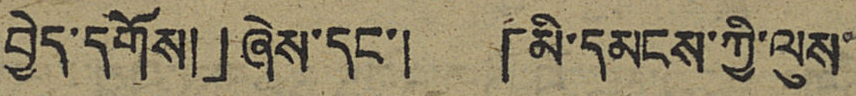བྱེད་དགོས།」ཞེས་དང་། 「མི་དམངས་ཀྱི་ལུས་
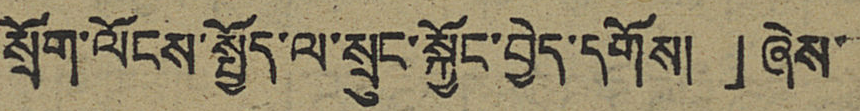སྲོག་ལོངས་སྤྱོད་ལ་སྲུང་སྐྱོང་བྱེད་དགོས།」ཞེས་
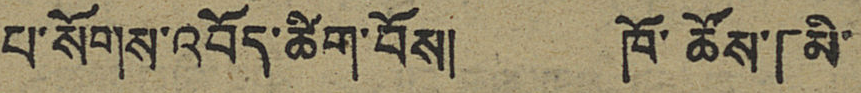པ་སོགས་འབོད་ཚིག་བོས། ཁོ་ཚོས་「མི་
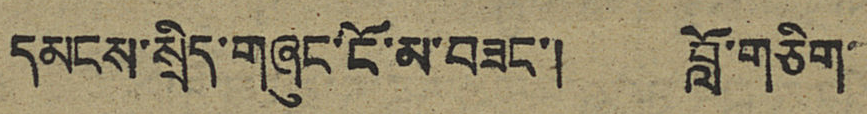དམངས་སྲིད་གཞུང་ངོ་མ་བཟང་། བློ་གཅིག་
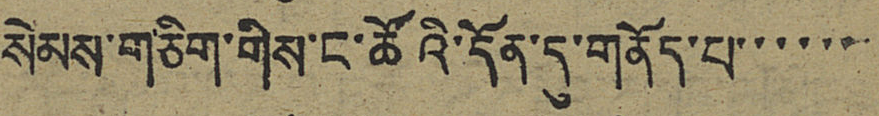སེམས་གཅིག་གིས་ང་ཚོའི་དོན་དུ་གནོད་པ་་་་་་
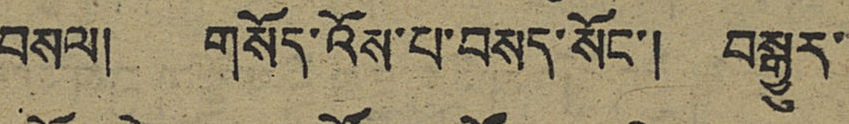བསལ། གསོད་འོས་པ་བསད་སོང་། བསྒྱུར་
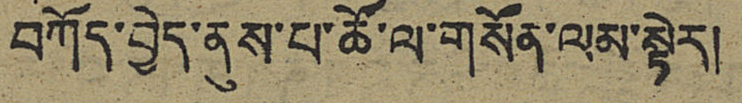བཀོད་བྱེད་ནུས་པ་ཚོ་ལ་གསོན་ལམ་སྟེར།
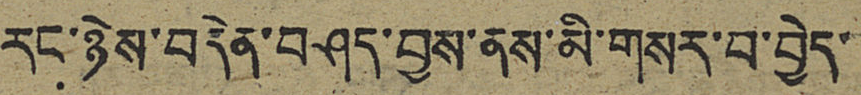རང་ཉེས་བདེན་བཤད་བྱས་ནས་མི་གསར་བ་བྱེད་
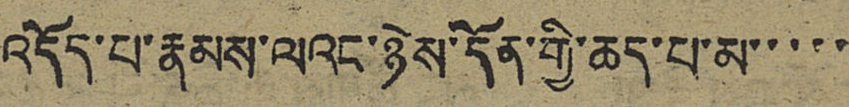འདོད་པ་རྣམས་ལའང་ཉེས་དོན་གྱི་ཆད་པ་མ་་་་་
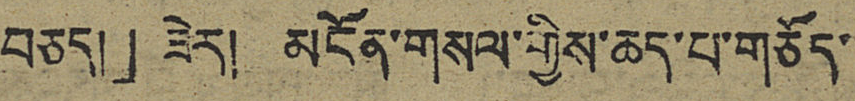བཅད།」ཟེར། མངོན་གསལ་གྱིས་ཆད་པ་གཅོད་
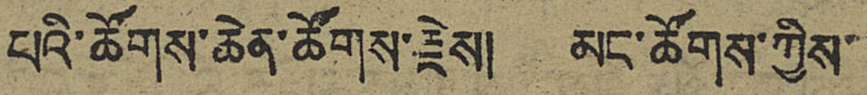པའི་ཚོགས་ཆེན་ཚོགས་རྗེས། མང་ཚོགས་ཀྱིས་
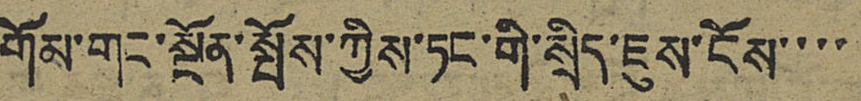གོམ་གང་སྔོན་སྤོས་ཀྱིས་ཏང་གི་སྲིད་ཇུས་ངོས་་་་
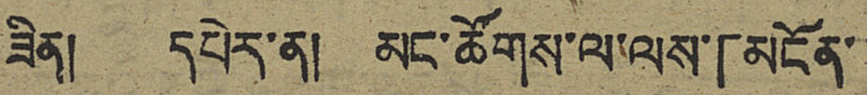ཟིན། དཔེར་ན། མང་ཚོགས་ལ་ལས་「མངོན་
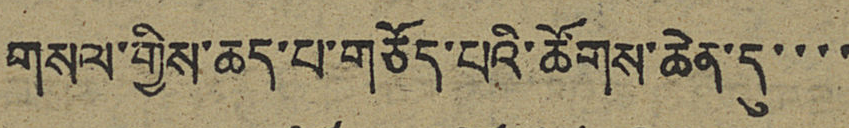གསལ་གྱིས་ཆད་པ་གཅོད་པའི་ཚོགས་ཆེན་དུ་་་་
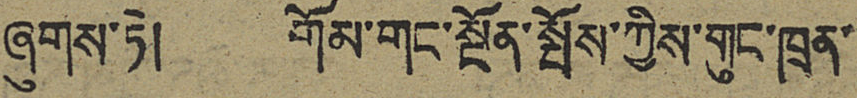ཞུགས་ཏེ། གོམ་གང་སྔོན་སྤོས་ཀྱིས་གུང་ཁྲན་
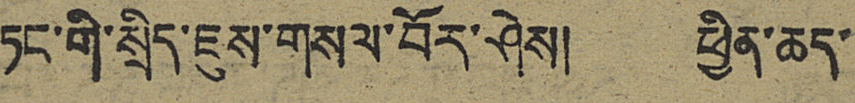ཏང་གི་སྲིད་ཇུས་གསལ་བོར་ཤེས། ཕྱིན་ཆད་
